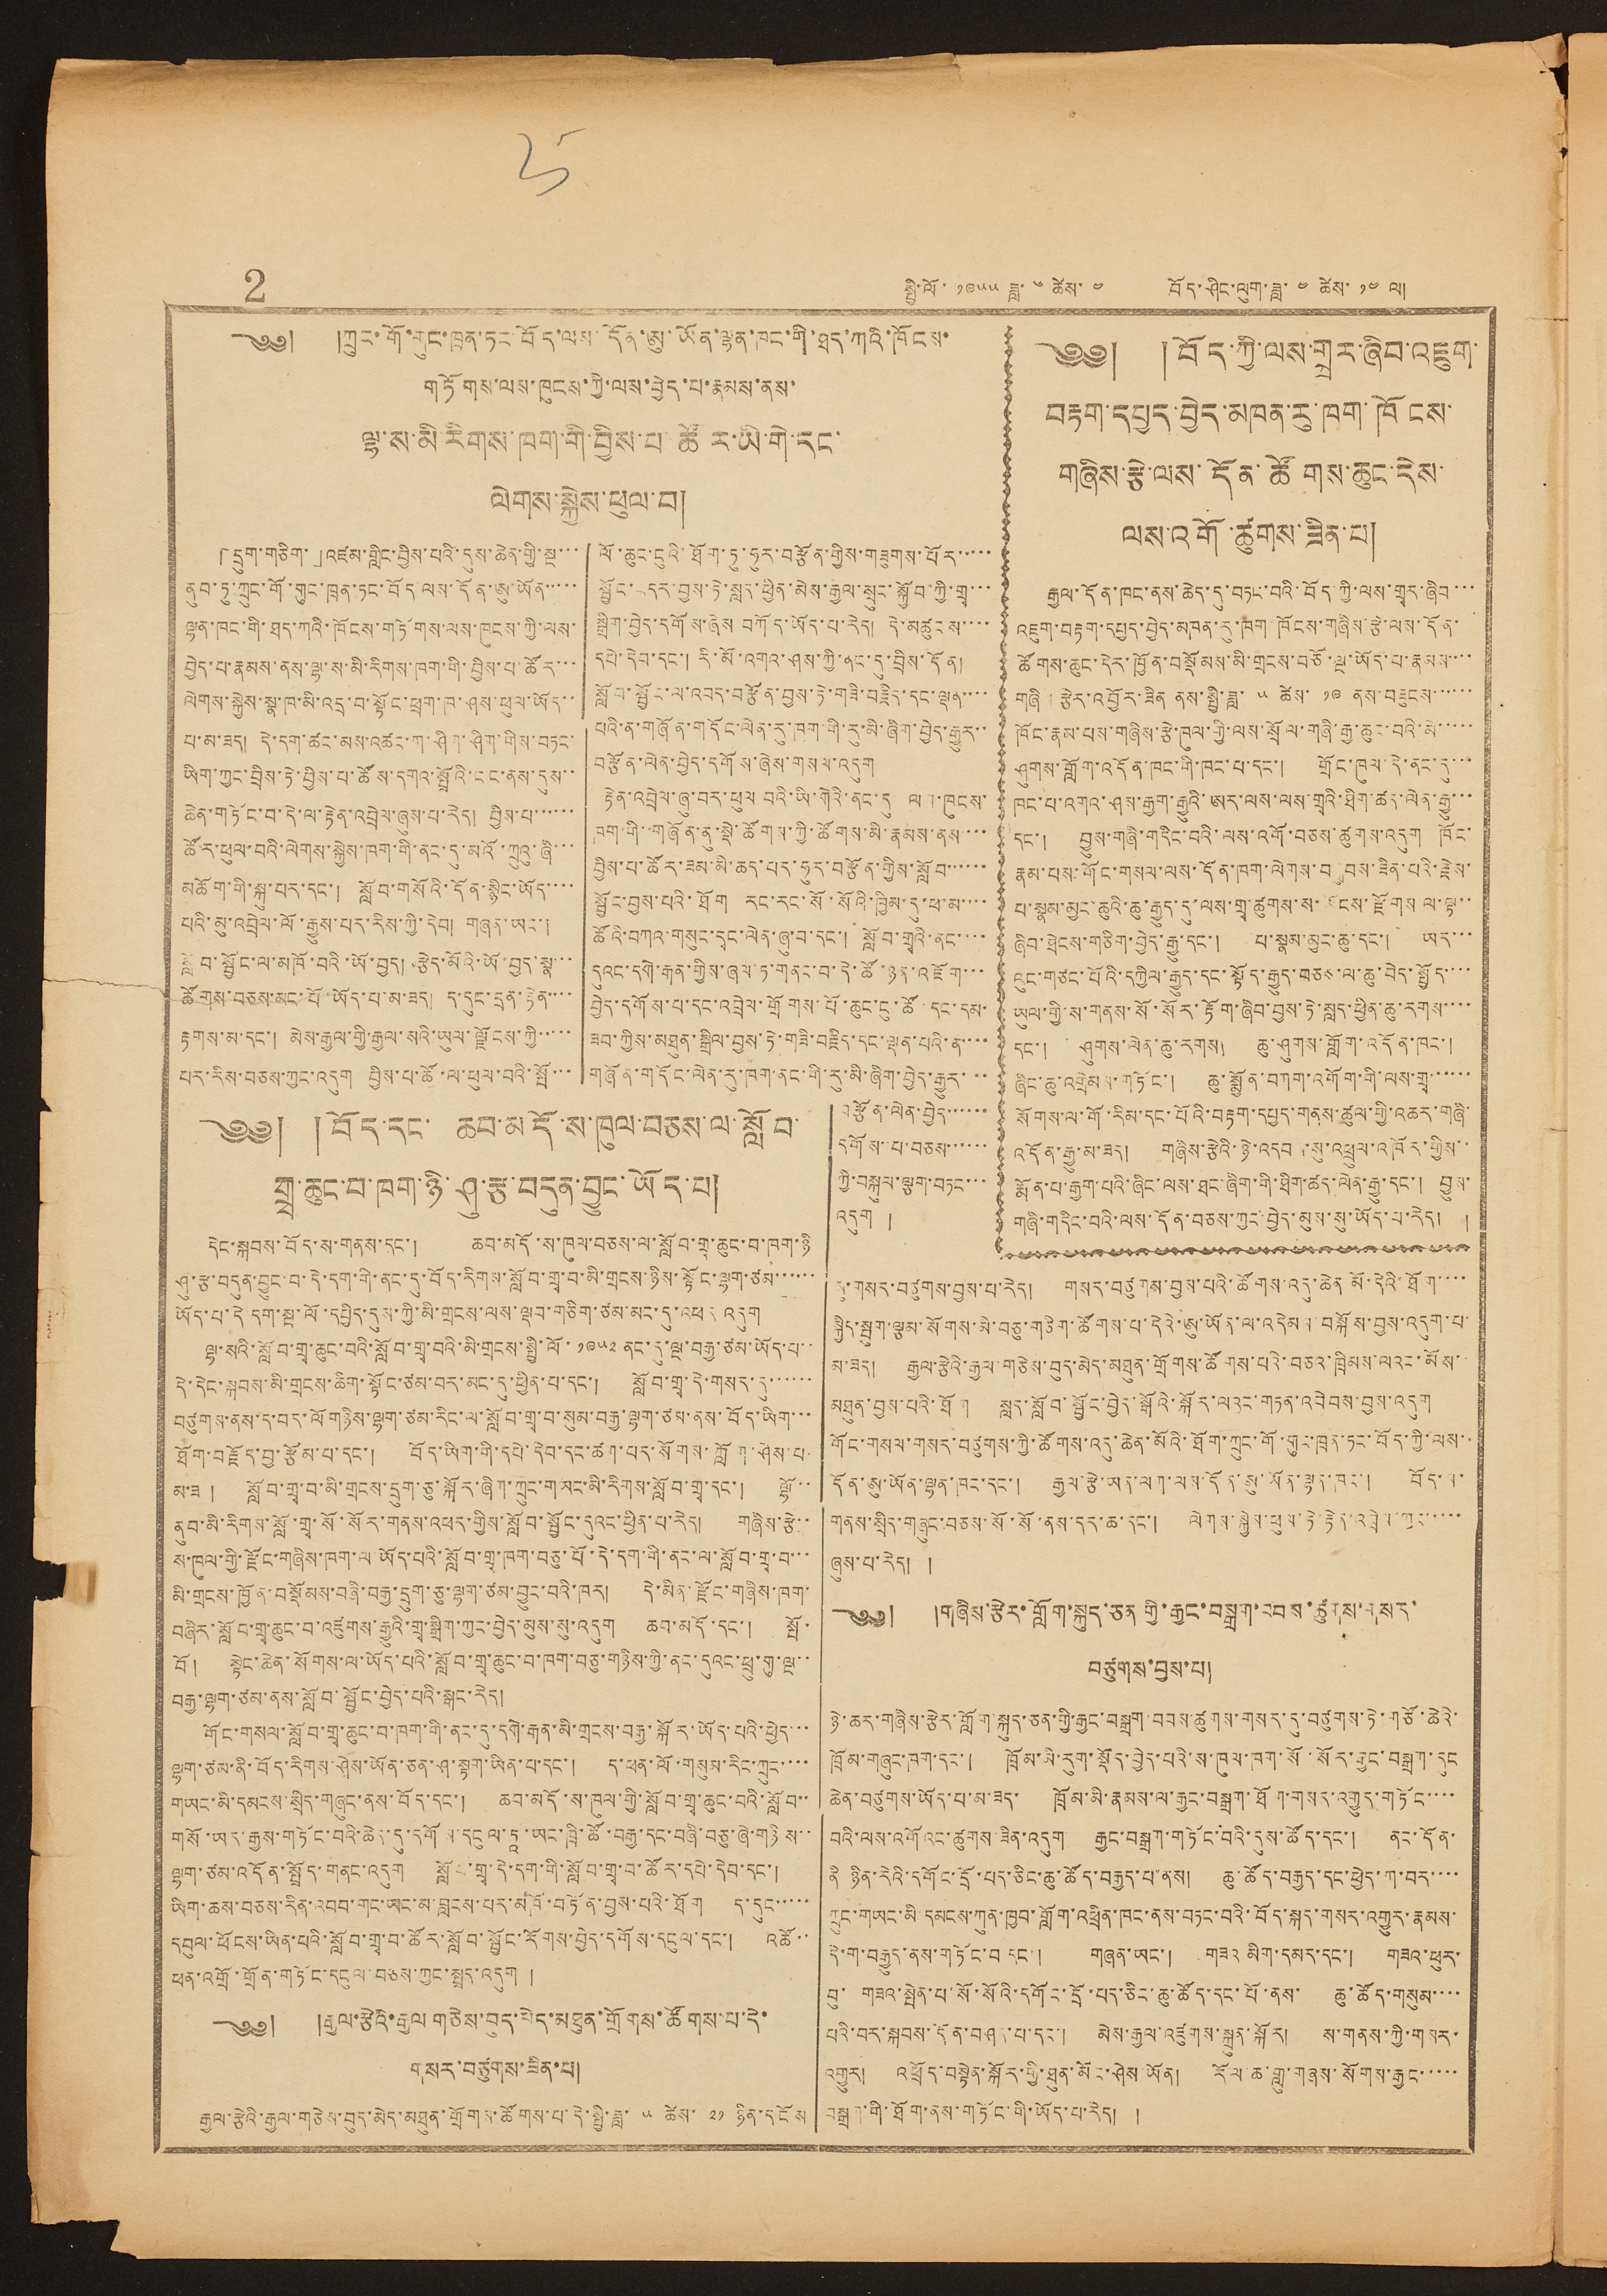2 སྤྱི་ལོ་ ༡༩༥༥ ཟླ་ ༦ ཚེས་ ༤ བོད་ཤིང་ལུག་ཟླ་ ༤ ཚེས་ ༡༤ ལ།
༄༅། །ཀྲུང་གོ་གུང་ཁྲན་ཏང་བོད་ལས་དོན་ཨུ་ཡོན་ལྷན་ཁང་གི་ཐད་ཀའི་ཁོངས་
གཏོགས་ལས་ཁུངས་ཀྱི་ལས་བྱེད་པ་རྣམས་ནས་
ལྷ་ས་མི་རིགས་ཁག་གི་བྱིས་པ་ཚོར་ཡི་གེ་དང་
ལེགས་སྐྱེས་ཕུལ་བ།
「དྲུག་གཅིག་」འཛམ་གླིང་བྱིས་པའི་དུས་ཆེན་གྱི་སྔ་་་
ནུབ་ཏུ་ཀྲུང་གོ་གུང་ཁྲན་ཏང་བོད་ལས་དོན་ཨུ་ཡོན་་་་་
ལྷན་ཁང་གི་ཐད་ཀའི་ཁོངས་གཏོགས་ལས་ཁུངས་ཀྱི་ལས་
བྱེད་པ་རྣམས་ནས་ལྷ་ས་མི་རིགས་ཁག་གི་བྱིས་པ་ཚོར་་་
ལེགས་སྐྱེས་སྣ་ཁ་མི་འདྲ་བ་སྟོང་ཕྲག་ཁ་ཤས་ཕུལ་ཡོད་་
པ་མ་ཟད། དེ་དག་ཚང་མས་འཚང་ཀ་ཤིག་ཤིག་གིས་བཏང་
ཡིག་ཀྱང་བྲིས་ཏེ་བྱིས་པ་ཚོས་དགའ་སྤྲོའི་ངང་ནས་དུས་་
ཆེན་གཏོང་བ་དེ་ལ་རྟེན་འབྲེལ་ཞུས་པ་རེད། བྱིས་པ་་་་་་
ཚོར་ཕུལ་བའི་ལེགས་སྐྱེས་ཁག་གི་ནང་དུ་མའོ་ཀྲུའུ་ཞི་་་
མཆོག་གི་སྐུ་པར་དང་། སློབ་གསོའི་དོན་སྙིང་ཡོད་་་་
པའི་མུ་འབྲེལ་ལོ་རྒྱུས་པར་རིས་ཀྱི་དེབ། གཞན་ཡང་།
སློབ་སྦྱོང་ལ་མཁོ་བའི་ཡོ་བྱད། རྩེད་མོའི་ཡོ་བྱད་སྣ་་་
ཚོགས་བཅས་མང་པོ་ཡོད་པ་མ་ཟད། ད་དུང་དྲན་རྟེན་་་་
རྟགས་མ་དང་། མེས་རྒྱལ་གྱི་རྒྱལ་སའི་ཡུལ་ལྗོངས་ཀྱི་་་་་
པར་རིས་བཅས་ཀྱང་འདུག བྱིས་པ་ཚོ་ལ་ཕུལ་བའི་སྤོ་་་
ལོ་ཆུང་ངུའི་ཐོག་ཏུ་ཧུར་བརྩོན་གྱིས་གཟུགས་པོར་་་་་
སྦྱོང་བདར་བྱས་ཏེ་སླད་ཕྱིན་མེས་རྒྱལ་སྲུང་སྐྱོབ་ཀྱི་གྲྭ་་་
སྒྲིག་བྱེད་དགོས་ཞེས བཀོད་ཡོད་པ་རེད། དེ་མཚུངས་་་་
དཔེ་དེབ་དང་། རི་མོ་འགའ་ཤས་ཀྱི་ནང་དུ་བྲིས་དོན།
སློབ་སྦྱོང་ལ་འབད་བརྩོན་བྱས་ཏེ་གཟི་བརྗིད་དང་ལྡན་་་་་
པའི་ན་གཞོན་གདོང་ལེན་རུ་ཁག་གི་རུ་མི་ཞིག་བྱེད་རྒྱུར་་
བརྩོན་ལེན་བྱེད་དགོས་ཞེས་གསལ་འདུག
རྟེན་འབྲེལ་ཞུ་བར་ཕུལ བའི་ཡི་གེའི་ནང་དུ ལས་ཁུངས་
ཁག་གི་གཞོན་ནུ་སྡེ་ཚོགས་ཀྱི་ཚོགས་མི་རྣམས་ནས་་་
བྱིས་པ་ཚོར་ཟམ་མི་ཆད་པར་ཧུར་བརྩོན་གྱིས་སློབ་་་་་་
སྦྱོང་བྱས་པའི་ཐོག རང་རང་སོ་སོའི་ཁྱིམ་དུ་ཕ་མ་་་་
ཚོའི་བཀའ་གསུང་དྭང་ལེན་ཞུ་བ་དང་། སློབ་གྲྭའི་ནང་་་་
དུའང་དགེ་རྒན་གྱིས་ཞལ་ཏ་གནང་བ་དེ་ཚོ་ཉན་འཇོག་་་
བྱེད་དགོས་པ་དང་འབྲེལ་གྲོགས་པོ་ཆུང་ངུ་ཚོ་དང་དམ་
ཟབ་ཀྱིས་མཐུན་སྒྲིལ་བྱས་ཏེ་གཟི་བརྗིད་དང་ལྡན་པའི་ན་་་་
གཞོན་གདོང་ལེན་རུ་ཁག་ནང་གི་རུ་མི་ཞིག་བྱེད་རྒྱུར་་་
བརྩོན་ལེན་བྱེད་་་་་་
དགོས་་པ་བཅས་་་་་་
ཀྱི་བསྐུལ་ལྕག་བཏང་་་
འདུག །
༄༅། །བོད་ཀྱི་ལས་གྲྭར་ཞིབ་འཇུག་
བརྟག་དཔྱད་བྱེད་མཁན་རུ་ཁག་ཁོངས་
གཞིས་རྩེ་ལས་དོན་ཚོགས་ཆུང་དེས་
ལས་འགོ་ཚུགས་ཟིན་པ།
རྒྱལ་དོན་ཁང་ནས་ཆེད་དུ་བཏང་བའི་བོད་ཀྱི་ལས་གྲྭར་ཞིབ་་་
འཇུག་བརྟག་དཔྱད་བྱེད་མཁན་རུ་ཁག ཁོངས་གཞིས་རྩེ་ལས་དོན་
ཚོགས་ཆུང་དེར་ཁྱོན་བསྡོམས་མི་གྲངས་བཅོ་ལྔ་ཡོད་པ་རྣམས་་་་
གཞི་རྩེར་འབྱོར་ཟིན་ནས་སྤྱི་ཟླ་ ༥ ཚེས་ ༡༩ ནས་བཟུངས་་་་་་
ཁོང་རྣམ་པས་གཞིས་རྩེ་ཁུལ་གྱི་ལས་སྲོལ་གཞི་རྒྱ་ཆུང་བའི་མེ་་་་་
ཤུགས་གློག་འདོན་ཁང་གི་ཁང་པ་དང་། གྲོང་ཁུལ་དེ་ནང་དུ་་་
ཁང་པ་འགའ་ཤས་རྒྱག་རྒྱུའི་ཨར་ལས་ལས་གྲྭའི་ཐིག་ཚད་ལེན་རྒྱུ་་་
དང་། བྱུས་གཞི་གདིང་བའི་ལས་འགོ་བཅས་ཚུགས་འདུག ཁོང་
རྣམ་པས་གོང་གསལ་ལས་དོན་ཁག་ལེགས་བསྒྲུབས་ཟིན་པའི་རྗེས་
པ་སྣམ་མྱང་ཆུའི་ཆུ་རྒྱུད་དུ་ལས་གྲྭ་ཚུགས་ས་ཡོངས་རྫོགས་ལ་ལྟ་་
ཞིབ་ཐེངས་གཅིག་བྱེད་རྒྱུ་དང་། པ་སྣམ་མྱང་ཆུ་དང་། ཡར་་་
ལུང་གཙང་པོའི་དཀྱིལ་རྒྱུད་དང་སྟོད་རྒྱུད་བཅས་ལ་ཆུ་བེད་སྤྱོད་་་་
ཡུལ་གྱི་ས་གནས་སོ་སོར་རྟོག་ཞིབ་བྱས་ཏེ་སླད་ཕྱིན་ཆུ་རགས་་་་
དང་། ཤུགས་ལེན་ཆུ་རགས། ཆུ་ཤུགས་གློག་འདོན་ཁང་།
ཞིང་ཆུ་འགྲེམས་གཏོང་། ཆུ་སྨྱོན་བཀག་འགོག་གི་ལས་གྲྭ་་་་་་
སོགས་ལ་གོ་རིམ་དང་པོའི་བརྟག་དཔྱད་གནས་ཚུལ་གྱི་འཆར་གཞི་
འདོན་རྒྱུ་མ་ཟད། གཞིས་རྩེའི་ཉེ་འདབས་སུ་འཕྲུལ་འཁོར་གྱིས་་
རྨོན་པ་རྒྱག་པའི་ཞིང་ལས་ཐང་ཞིག་གི་ཐིག་ཚད་ལེན་རྒྱུ་དང་། བྱུས་
གཞི་གདིང་བའི་ལས་དོན་བཅས་ཀྱང་བྱེད་མུས་སུ་ཡོད་པ་རེད། །
༄༅། །བོད་དང་ ཆབ་མདོ་ས་ཁུལ་བཅས་ལ་སློབ་
གྲྭ་ཆུང་བ་ཁག་ཉི་ཤུ་བདུན་བྱུང་ཡོད་པ།
དེང་སྐབས་བོད་ས་གནས་དང་། ཆབ་མདོ་ས་ཁུལ་བཅས་ལ་སློབ་གྲྭ་ཆུང་བ་ཁག་ཉི
ཤུ་རྩ་བདུན་བྱུང་བ་དེ་དག་གི་ནང་དུ་བོད་རིགས་སློབ་གྲྭ་བ་མི་གྲངས་ཉིས་སྟོང་ལྷག་ཙམ་་་་་་
ཡོད་པ་དེ་དག་སྔ་ལོ་དཔྱིད་དུས་ཀྱི་མི་གྲངས་ལས་ལྡབ་གཅིག་ཙམ་མང་དུ་འཕར འདུག
ལྷ་སའི་སློབ་གྲྭ་ཆུང་བའི་སློབ་གྲྭ་བའི་མི་གྲངས་སྤྱི་ལོ་ ༡༩༥༢ ནང་དུ་ལྔ་བརྒྱ་ཙམ་ཡོད་པ་་
དེ་དེང་སྐབས་མི་གྲངས་ཆིག་སྟོང་ཙམ་བར་མང་དུ་ཕྱིན་པ་དང་། སློབ་གྲྭ་དེ་གསར་དུ་་་་་་
བཙུགས་ནས་ད་བར་ལོ་གཉིས་ལྷག་ཙམ་རིང་ལ་སློབ་གྲྭ་བ་སུམ་བརྒྱ་ལྷག་ཙམ་ནས་བོད་ཡིག་་་
ཐོག་བརྗོད་བྱ་རྩོམ་པ་དང་། བོད་ཡིག་གི་དཔེ་དེབ་དང་ཚག་པར་སོགས་ཀློག་ཤེས་པ་
མ་ཟ། སློབ་གྲྭ་བ་མི་གྲངས་དྲུག་ཅུ་སྐོར་ཞིག་ཀྲུང་གཡང་མི་རིགས་སློབ་གྲྭ་དང་། ལྷོ་་
ནུབ་མི་རིགས་སློབ་གྲྭ་སོ་སོར་གནས་འཕར་གྱིས་སློབ་སྦྱོང་དུའང་ཕྱིན་པ་རེད། གཞིས་རྩེ་་
ས་ཁུལ་གྱི་རྫོང་གཞིས་ཁག་ལ་ཡོད་པའི་སློབ་གྲྭ་ཁག་བཅུ་པོ་དེ་དག་གི་ནང་ལ་སློབ་གྲྭ་བ་་་
མི་གྲངས་ཁྱོན་བསྡོམས་བཞི་བརྒྱ་དྲུག་ཅུ་ལྷག་ཙམ་བྱུང་བའི་ཁར། དེ་མིན་རྫོང་གཞིས་ཁག་
བཞིར་སློབ་གྲྭ་ཆུང་བ་འཛུགས་རྒྱུའི་གྲྭ་སྒྲིག་ཀྱང་བྱེད་མུས་སུ་འདུག ཆབ་མདོ་དང་། སྤོ་
བོ། སྟེང་ཆེན་སོགས་ལ་ཡོད་པའི་སློབ་གྲྭ་ཆུང་བ་ཁག་བཅུ་གཉིས་ཀྱི་ནང་དུའང་ཕྲུ་གུ་ལྔ་་
བརྒྱ་ལྷག་ཙམ་ནས་སློབ་སྦྱོང་བྱེད་པའི་སྒང་རེད།
གོང་གསལ་སློབ་གྲྭ་ཆུང་བ་ཁག་གི་ནང་དུ་དགེ་རྒན་མི་གྲངས་བརྒྱ་སྐོར་ཡོད་པའི་ཕྱེད་་་
ལྷག་ཙམ་ནི་བོད་རིགས་ཤེས་ཡོན་ཅན་ཤ་སྟག་ཡིན་པ་དང་། ད་ཕན་ལོ་གསུམ་རིང་ཀྲུང་་་་
གཡང་མི་དམངས་སྲིད་གཞུང་ནས་བོད་དང་། ཆབ་མདོ་ས་ཁུལ་གྱི་སློབ་གྲྭ་ཆུང་བའི་སློབ་་
གསོ་ཡར་རྒྱས་གཏོང་བའི་ཆེད་དུ་དགོས་དངུལ་དཱ་ཡང་ཁྲི་ཚོ་བརྒྱ་དང་བཞི་བཅུ་ཞེ་གཉིས་་
ལྷག་ཙམ་འདོན་སྤྲོད་གནང་འདུག སློབ་གྲྭ་དེ་དག་གི་སློབ་གྲྭ་བ་ཚོར་དཔེ་དེབ་དང་།
ཡིག་ཆས་བཅས་རིན་འབབ་གང་ཡང་མ་བླངས་པར་མཁོ་བཏོན་བྱས་པའི་ཐོག ད་དུང་་་་་
དབུལ་ཕོངས་ཡིན་པའི་སློབ་གྲྭ་བ་ཚོར་སློབ་སྦྱོང་རོགས་བྱེད་དགོས་དངུལ་དང་། འཚོ་་
ཕན་འགྲོ་གྲོན་གཏོང་དངུལ་བཅས་ཀྱང་སྤྲད་འདུག།།
༄༅། །རྒྱལ་རྩེའི་རྒྱལ གཅེས་བུད་མེད་མཐུན་གྲོགས་ཚོགས་པ་དེ་
གསར་བཙུགས་ཟིན་པ།
རྒྱལ་རྩེའི་རྒྱལ་གཅེས་བུད་མེད་མཐུན་གྲོགས་ཚོགས་པ་དེ་སྤྱི་ཟླ་ ༥ ཚེས་ ༢༡ ཉིན་དངོས
སུ་གསར་བཙུགས་བྱས་པ་རེད། གསར་བཙུགས་བྱས་པའི་ཚོགས་འདུ་ཆེན་མོ་དེའི་ཐོག་་་་
སྐྱིད་སྦུག་ལྕམ་སོགས་མི་བཅུ་གཅིག་ཚོགས་པ་དེའི་ཨུ་ཡོན་ལ་འདེམས་བསྐོས་བྱས་འདུག་པ་
མ་ཟད། རྒྱལ་རྩེའི་རྒྱལ་གཅེས་བུད་མེད་མཐུན་གྲོགས་ཚོགས་པའི་བཅའ་ཁྲིམས་ལའང་མོས་་
མཐུན་བྱས་པའི་ཐོག སླད་སློབ་སྦྱོང་བྱེད་སྒོའི་སྐོར་ལའང་གཏན་འབེབས་བྱས་འདུག
གོང་གསལ་གསར་བཙུགས་ཀྱི་ཚོགས་འདུ་ཆེན་མོའི་ཐོག་ཀྲུང་གོ་གུང་ཁྲན་ཏང་བོད་ཀྱི་ལས་
དོན་ཨུ་ཡོན་ལྷན་ཁང་དང་། རྒྱལ་རྩེ་ཡན་ལག་ལས་དོན་ཨུ་ཡོན་ལྷན་ཁང་། བོད་ས་
གནས་སྲིད་གཞུང་བཅས་སོ་སོ་ནས་དར་ཆ་དང་། ལེགས་སྐྱེས་ཕུས་ཏེ་རྟེན་འབྲེལ་ཀྱང་་་་་་
ཞུས་པ་རེད། །
༄༅། །གཞིས་རྩེར་གློག་སྐུད་ཅན་གྱི་རྒྱང་བསྒྲག་བབས་ཚུགས་གསར་
བཙུགས་བྱས་པ།
ཉེ་ཆར་གཞིས་རྩེར་གློག་སྐུད་ཅན་གྱི་རྒྱང་བསྒྲག་བབས་ཚུགས་གསར་དུ་བཙུགས་ཏེ་གཙོ་ཆེའི་
ཁྲོམ་གཞུང་ཁག་དང་། ཁྲོམ་མི་རུག་སྡོད་བྱེད་པའི་ས་ཁུལ་ཁག་སོ་སོར་རྒྱང་བསྒྲག་དུང་
ཆེན་བཙུགས་ཡོད་པ་མ་ཟད་ ཁྲོམ་མི་རྣམས་ལ་རྒྱང་བསྒྲག་ཐོག་གསར་འགྱུར་གཏོང་་་་
བའི་ལས་འགོ འང་ཚུགས་ཟིན་འདུག རྒྱང་བསྒྲག་གཏོང་བའི་དུས་ཚོད་དང་། ནང་དོན་
ནི ཉིན་རེའི་དགོང་དྲོ་པད་ཅིང་ཆུ་ཚོད་བརྒྱད་པ་ནས། ཆུ་ཚོད་བརྒྱད་དང་ཕྱེད་ཀ་བར་་་་
ཀྲུང་གཡང་མི་དམངས་ཀུན་ཁྱབ་གློག་འཕྲིན་ཁང་ནས་བཏང་བའི་བོད་སྐད་གསར་འགྱུར་རྣམས་
དེ་ག་བརྒྱུད་ནས་གཏོང་བ་དང་། གཞན་ཡང་། གཟའ མིག་དམར་དང་། གཟའ་ཕུར་
བུ་ གཟའ་སྤེན་པ་སོ་སོའི་དགོང་དྲོ་པད་ཅིང་ཆུ་ཚོད་དང་པོ་ནས་ ཆུ་ཚོད་གསུམ་་་་
པའི་བར་སྐབས་དོན་བཤད་པ་དང་། མེས་རྒྱལ་འཛུགས་སྐྲུན་སྐོར། ས་གནས་ཀྱི་གསར་
འགྱུར། འཕྲོད་བསྟེན་སྐོར་གྱི་ཐུན་མོང་ཤེས་ཡོན། རོལ་ཆ་གླུ་གཞས་སོགས་རྒྱང་་་་་
བསྒྲག་གི་ཐོག་ནས་གཏོང་གི་ཡོད་པ་རེད། །
